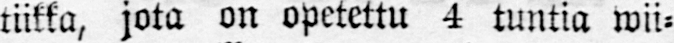tiikka, jota on opetettu 4 tuntia wii-
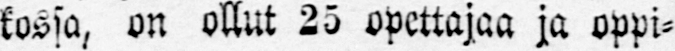kossa, on ollut 25 opettajaa ja oppi-
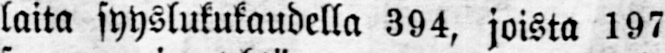laita syyslukukaudella 394, joista 197
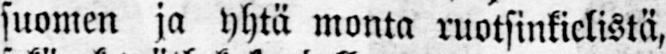suomen ja yhtä monta ruotsinkielistä,
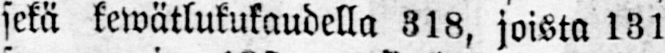sekä kewätlukukaudella 318, joista 131
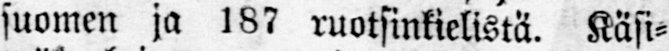suomen ja 187 ruotsinkielistä. Käsi-
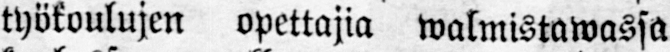työkoulujen opettajia walmistawassa
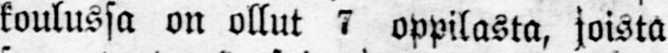koulussa on ollut 7 oppilasta, joista
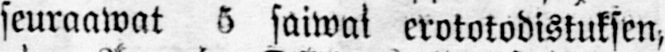seuraawat 8 saiwat erototodistuksen,
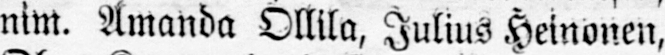nim. Amanda Ollila, Julius Heinonen,
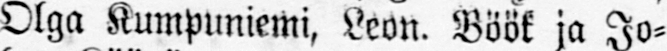Olga Kumpuniemi, Leon. Böök ja Jo-
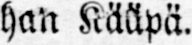han Kääpä.
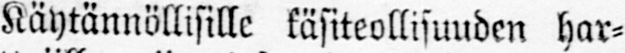Käytännöllisille käsiteollisuuden har-
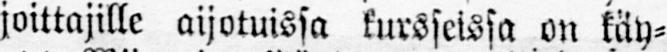joittajille sijatuissa kursseissa on käy-
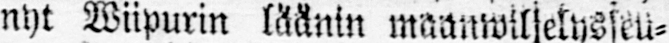nyt Wiipurin läänin maanwilselysseu-
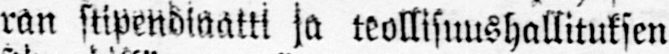ran stipendiaatti ja teollisuushallituksen
